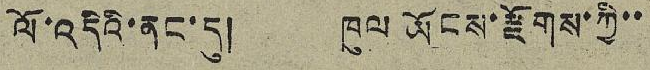ལོ་འདིའི་ནང་དུ། ཁུལ་ཡོངས་རྫོགས་ཀྱི་་
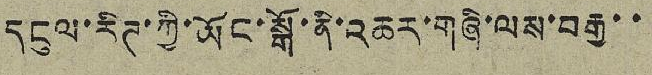དངུལ་རིཊ་ཀྱི་ཡོང་སྒོ་ནི་འཆར་གཞི་ལས་བརྒྱ་་
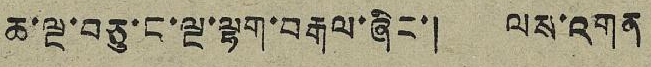ཆ་ལྔ་བཅུ་ང་ལྔ་ལྷག་བརྒལ་ཞིང་། ལས་འགན
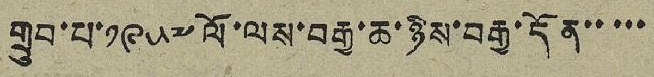གྲུབ་པ་ ༡༩༥༧ ལོ་ལས་བརྒྱ་ཆ་ཉིས་བརྒྱ་དོན་་་་་
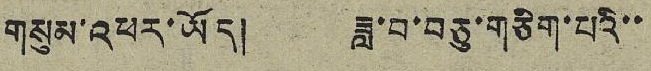གསུམ་འཕར་ཡོད། ཟླ་བ་བཅུ་གཅིག་པའི་་
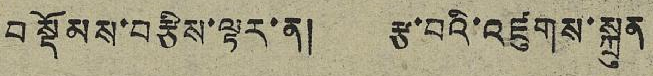བསྡོམས་བརྩིས་ལྟར་ན། རྩ་བའི་འཛུགས་སྐྲུན
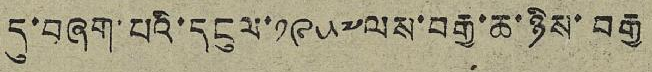དུ་བཞག་པའི་དངུལ་ ༡༩༥༧ ལས་བརྒྱ་ཆ་ཉིས་བརྒྱ
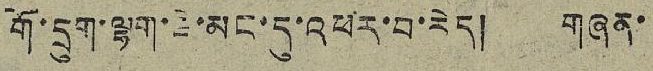གོ་དྲུག་ལྷག་ཇེ་མང་དུ་འཕར་བ་རེད། གཞན་
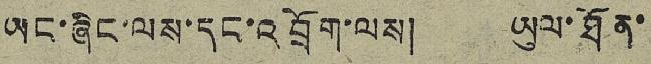ཡང་ཞིང་ལས་དང་འབྲོག་ལས། ཡུལ་ཐོན་
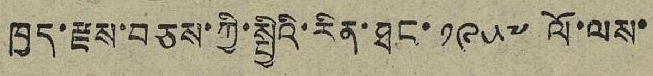ཁྱད་རྫས་བཅས་ཀྱི་སྤྱིའི་རིན་ཐང་ ༡༩༥༧ ལོ་ལས་
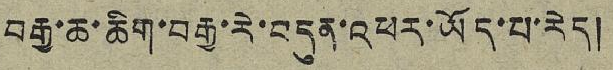བརྒྱ་ཆ་ཆིག་བརྒྱ་རེ་བདུན་འཕར་ཡོད་པ་རེད།
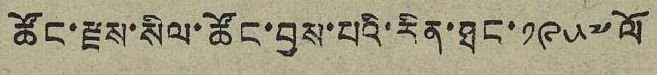ཚོང་རྫས་སིལ་ཚོང་བྱས་པའི་རིན་ཐང་ ༡༩༥༧ ལོ
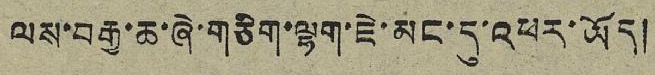ལས་བརྒྱ་ཆ་ཞེ་གཅིག་ལྷག་ཇེ་མང་དུ་འཕར་ཡོད།
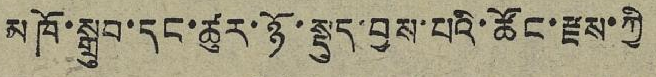མཁོ་སྒྲུབ་དང་ཚུར་ཉོ་སྡུད་བྱས་པའི་ཚོང་རྫས་ཀྱི
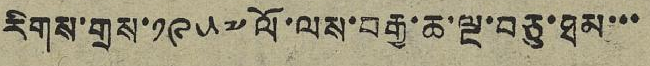རིགས་གྲས་ ༡༩༥༧ ལོ་ལས་བརྒྱ་ཆ་ལྔ་བཅུ་ཐམ་་་
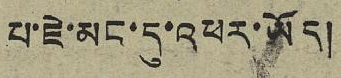པ་ཇེ་མང་དུ་འཕར་ཡོད།
